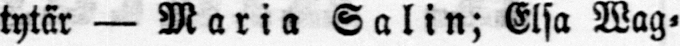tytär — Maria Salin; Elsa Wag-
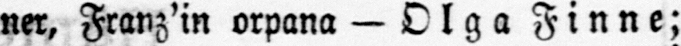ner, Franz'in orpana — Olga Finne;
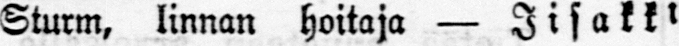Sturm, linnan hoitaja — Iisakki
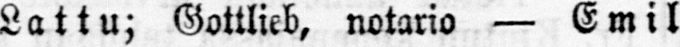Lattu; Gottlieb, notario — Emil
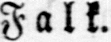Falk.
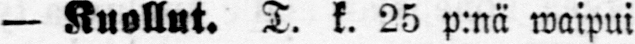— Kuollut. T. k. 25 p:nä waipui
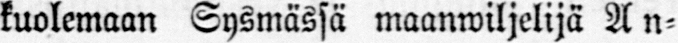kuolemaan Sysmässä maanwiljelijä An-
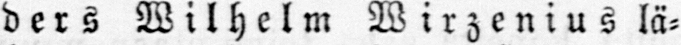ders Wilhelm Wirzenius lä-
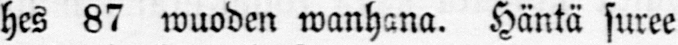hes 87 wuoden wanhana. Häntä suree
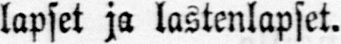lapset ja lastenlapset.
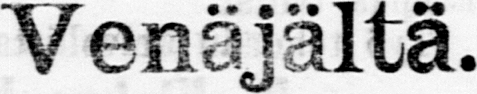Venäjältä.
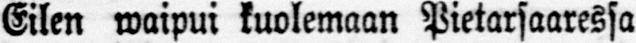Eilen waipui kuolemaan Pietarsaaressa
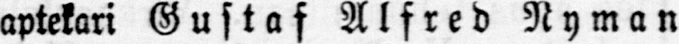aptekari Gustaf Alfred Nyman
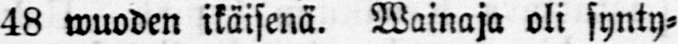48 wuoden ikäisenä. Wainaja oli synty-
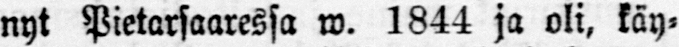nyt Pietarsaaressa w. 1844 ja oli, käy-
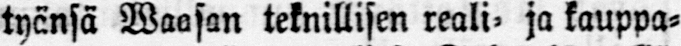tyänsä Waasan teknillisen reali- ja kauppa-
